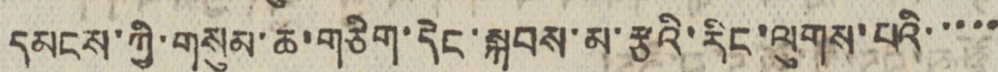དམངས་ཀྱི་གསུམ་ཆ་གཅིག་དེང་སྐབས་མ་རྩའི་རིང་ལུགས་པའི་་་་་
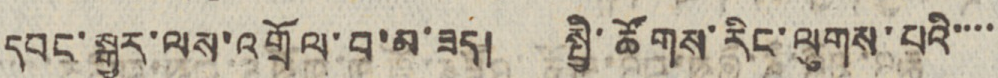དབང་སྒྱུར་ལས་འགྲོལ་བ་མ་ཟད། སྤྱི་ཚོགས་རིང་ལུགས་པའི་་་་
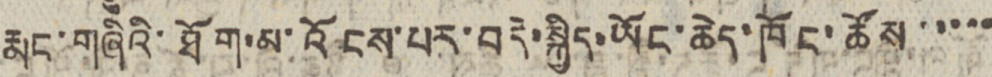རྨང་གཞིའི་ཐོག་མ་འོངས་པར་བདེ་སྐྱིད་ཡོང་ཆེད་ཁོང་ཚོས་་་་་
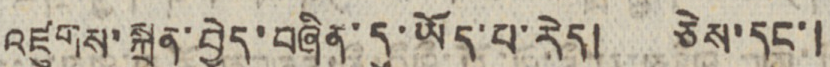འཛུགས་སྐྲུན་བྱེད་བཞིན་དུ་ཡོད་པ་རེད། ཅེས་དང་།
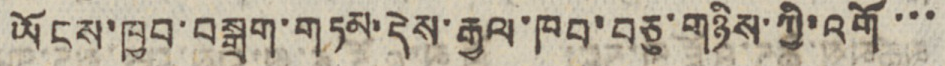ཡོངས་ཁྱབ་བསྒྲག་གཏམ་དེས་རྒྱལ་ཁབ་བཅུ་གཉིས་ཀྱི་འགོ་་་་
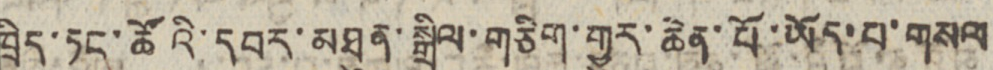ཁྲིད་ཏང་ཚོའི་དབར་མཐུན་སྒྲིལ་གཅིག་གྱུར་ཆེན་པོ་ཡོད་པ་གསལ
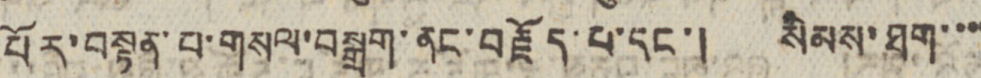པོར་བསྟན་པ་གསལ་བསྒྲག་ནང་བརྗོད་པ་དང་། སེམས་ཐག་་་་
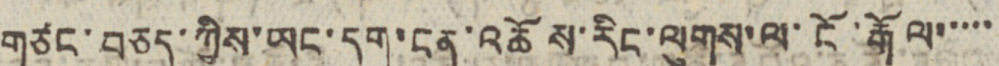གཙང་བཅད་ཀྱིས་ཡང་དག་ངན་འཆོས་རིང་ལུགས་ལ་ངོ་རྒོལ་་་་་
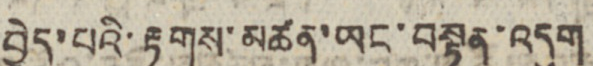བྱེད་པའི་རྟགས་མཚན་ཡང་བསྟན་འདུག
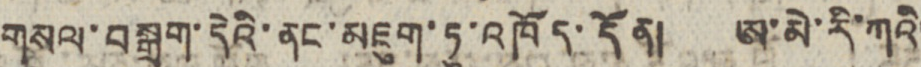གསལ་བསྒྲག་དེའི་ནང་མཇུག་ཏུ་འཁོད་དོན། ཨ་མེ་རི་ཀའི་
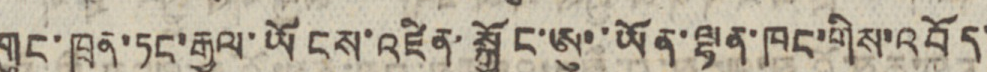གུང་ཁྲན་ཏང་རྒྱལ་ཡོངས་འཛིན་སྐྱོང་ཨུ་ཡོན་ལྷན་ཁང་གིས་འབོད་
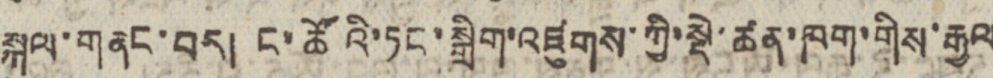སྐུལ་གནང་བར། ང་ཚོའི་ཏང་སྒྲིག་འཛུགས་ཀྱི་སྡེ་ཚན་ཁག་གིས་རྒྱལ
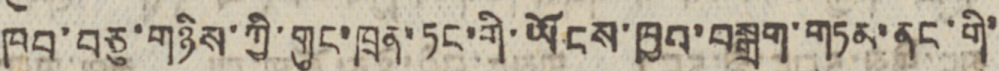ཁབ་བཅུ་གཉིས་ཀྱི་གུང་ཁྲན་ཏང་གི་ཡོངས་ཁྱབ་བསྒྲག་གཏམ་ནང་གི་
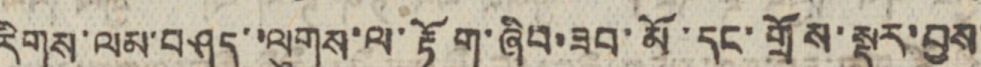རིགས་ལམ་བཤད་ལུགས་ལ་རྟོག་ཞིབ་ཟབ་མོ་དང་གྲོས་སྡུར་བྱས་
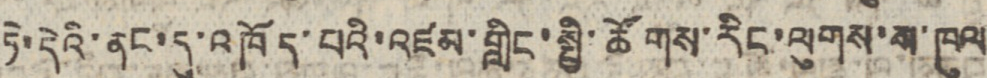ཏེ་དེའི་ནང་དུ་འཁོད་པའི་འཛམ་གླིང་སྤྱི་ཚོགས་རིང་ལུགས་ས་ཁུལ་
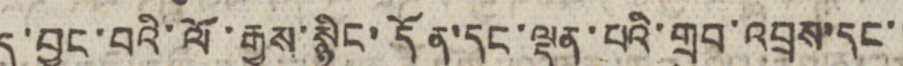དུ་བྱུང་བའི་ལོ་རྒྱུས་སྙིང་དོན་དང་ལྡན་པའི་གྲུབ་འབྲས་དང་།
